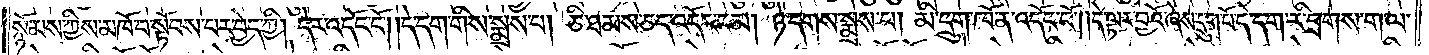སྙོམས་ཀྱིས་མཁོ་བ་སྟོབས་པར་བྱེད་ཀྱི། དེར་འདོང་ངོ༌། །དེ་དག་གིས་སྨྲས་པ། ཅི་ཐམས་ཅད་འདོང་ངམ། ཉེ་དགས་སྨྲས་པ། མི་དྲུག་ཁོ་ན་འདོང་ངོ༌། །དེ་ལྟར་བྱའོ་ཞེས་དྲུག་པོ་དེ་དག་རི་བྲགས་ག་ལ་
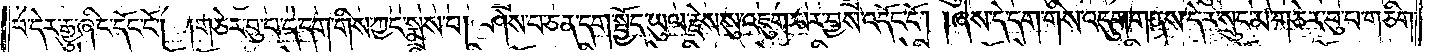བ་དེར་རྒྱུ་ཞིང་དོང་ངོ༌། །གཅེར་བུ་པ་དེ་དག་གིས་ཀྱང་སྨྲས་པ། ཤེས་པ་ཅན་དག་སྤྱོད་ཡུལ་རྗེས་སུ་འཇུག་པར་བྱས་འདོང་ངོ༌། །ཞེས་དེ་དག་གིས་འདུག་གནས་དེར་སྲུང་མ་གཅེར་བུ་པ་གཅིག་
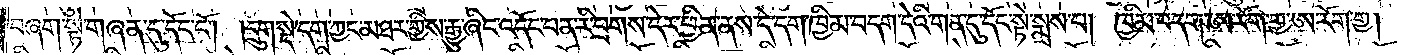བཞག་སྟེ་གཞན་དུ་དོང་ངོ༌། །དྲུག་སྡེ་དག་ཀྱང་མཐར་གྱིས་རྒྱུ་ཞིང་འདོང་པ་ན་རི་བྲགས་དེར་ཕྱིན་ནས་དེ་དག་ཁྱིམ་བདག་དེའི་གན་དུ་དོང་སྟེ་སྨྲས་པ། ཁྱིམ་བདག་ཨ་རོག་གྱ་ཨ་རོག་གྱ།
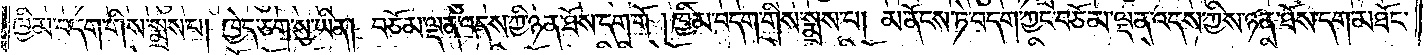ཁྱིམ་བདག་གིས་སྨྲས་པ། ཁྱེད་ཅག་སུ་ཡིན། བཅོམ་ལྡན་འདས་ཀྱི་ཉན་ཐོས་དག་གོ །ཁྱིམ་བདག་གིས་སྨྲས་པ། མ་ནོངས་ཏེ་བདག་ཀྱང་བཅོམ་ལྡན་འདས་ཀྱིས་ཉན་ཐོས་དག་མཐོང་
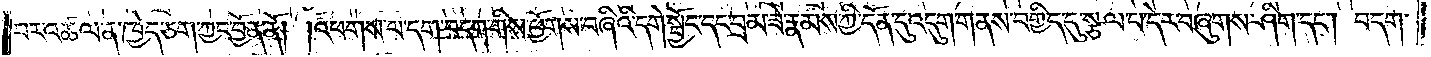བར་འཚལ་ན་ཁྱེད་ཅག་ཀྱང་བྱོན་ནོ། །འཕགས་པ་དག་བདག་གིས་ཕྱོགས་བཞིའི་དགེ་སྦྱོང་དང་བྲམ་ཟེ་རྣམས་ཀྱི་དོན་དུ་འདུག་གནས་བགྱིད་དུ་སྩལ་པ་དེར་བཞུགས་ཤིག་དང༌། བདག་
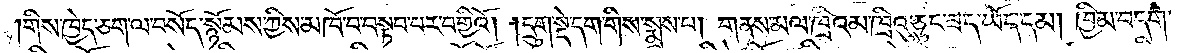གིས་ཁྱེད་ཅག་ལ་བསོད་སྙོམས་ཀྱིས་མཁོ་བ་བསྟབ་པར་བགྱིའོ། །དྲུག་སྡེ་དག་གིས་སྨྲས་པ། གནས་མལ་ཁྲིའམ་ཁྲིའུ་ཅུང་ཟད་ཡོད་དམ། ཁྱིམ་བདག་
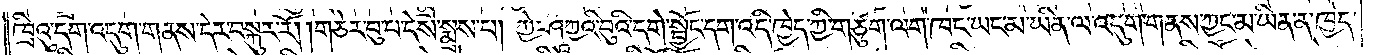ཁྲིའུ་དག་འདུག་གནས་དེར་བསྐུར་རོ། །གཅེར་བུ་པ་དེས་སྨྲས་པ། ཀྱེ་ཤཱཀྱའི་བུའི་དགེ་སྦྱོང་དག་འདི་ཁྱེད་ཀྱི་གཙུག་ལག་ཁང་ཡང་མ་ཡིན་ལ་འདུག་གནས་ཀྱང་མ་ཡིན་ན་ཁྱེད་
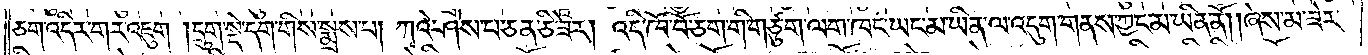ཅག་འདིར་གར་འཇུག །དྲུག་སྡེ་དག་གིས་སྨྲས་པ། ཀྭའེ་ཤེས་པ་ཅན་ཅི་ཟེར། འདི་ཁོ་བོ་ཅག་གི་གཙུག་ལག་ཁང་ཡང་མ་ཡིན་ལ་འདུག་གནས་ཀྱང་མ་ཡིན་ནོ། །ཞེས་མ་ཟེར་
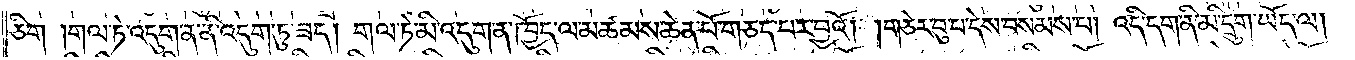ཅིག །གལ་ཏེ་འདུག་ན་ནི་འདུག་ཏུ་ཟད། གལ་ཏེ་མི་འདུག་ན་ཁྱོད་ལ་མཚམས་ཆེན་པོ་གཅད་པར་བྱའོ། །གཅེར་བུ་པ་དེས་བསམས་པ། འདི་དག་ནི་མི་དྲུག་ཡོད་ལ།
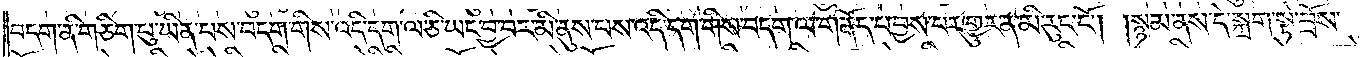བདག་ནི་གཅིག་པུ་ཡིན་པས་བདག་གིས་འདི་དག་ལ་ཅི་ཡང་བྱ་བར་མི་ནུས་པས་འདི་དག་གིས་བདག་ལ་གནོད་པ་བྱས་པར་གྱུར་ན་མི་རུང་ངོ༌། །སྙམ་ནས་དེ་སྐྲག་སྟེ་བྲོས་
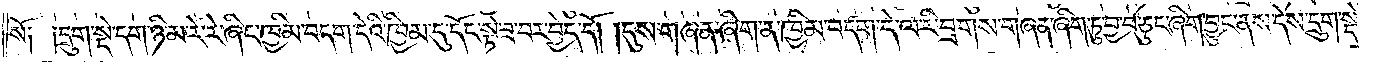སོ༑ ༑དྲུག་སྡེ་དག་ཉི་མ་རེ་རེ་ཞིང་ཁྱིམ་བདག་དེའི་ཁྱིམ་དུ་དོང་སྟེ་ཟ་བར་བྱེད་དོ། །དུས་གཞན་ཞིག་ན་ཁྱིམ་བདག་དེ་ལ་རི་བྲགས་གཞན་ཞིག་ཏུ་བྱ་བ་ཅུང་ཞིག་བྱུང་ནས་དེས་དྲུག་སྡེ་
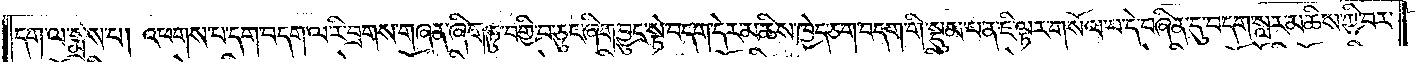དག་ལ་སྨྲས་པ། འཕགས་པ་དག་བདག་ལ་རི་བྲགས་གཞན་ཞིག་ཏུ་བགྱི་བ་ཅུང་ཞིག་བྱུང་སྟེ་བདག་དེར་མཆིས་ཁྱེད་ཅག་བདག་གི་སྡུམ་པ་ན་ཇི་ལྟར་གསོལ་བ་དེ་བཞིན་དུ་བདག་སླར་མཆིས་ཀྱི་བར་
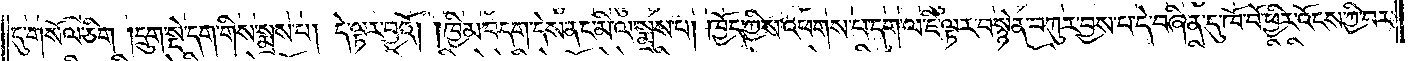དུ་གསོལ་ཅིག །དྲུག་སྡེ་དག་གིས་སྨྲས་པ། དེ་ལྟར་བྱའོ། །ཁྱིམ་བདག་དེས་ནང་མི་ལ་སྨྲས་པ། ཁྱོད་ཀྱིས་འཕགས་པ་དག་ལ་ཇི་ལྟར་བསྙེན་བཀུར་བྱས་པ་དེ་བཞིན་དུ་ཁོ་བོ་ཕྱིར་འོངས་ཀྱི་བར་
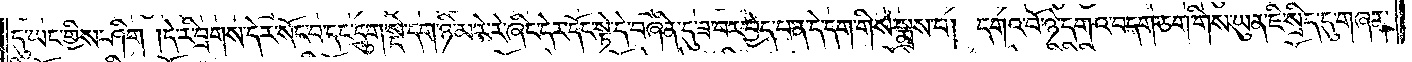དུ་ཡང་གྱིས་ཤིག །དེ་རི་བྲགས་དེར་སོང་བ་དང་དྲུག་སྡེ་དག་ཉི་མ་རེ་རེ་ཞིང་དེར་དོང་སྟེ་དེ་བཞིན་དུ་ཟ་བར་བྱེད་པ་ན་དེ་དག་གིས་སྨྲས་པ། དགའ་བོ་ཉེ་དགའ་བདག་ཅག་གིས་ཡུན་ཇི་སྲིད་དུ་གཞན་
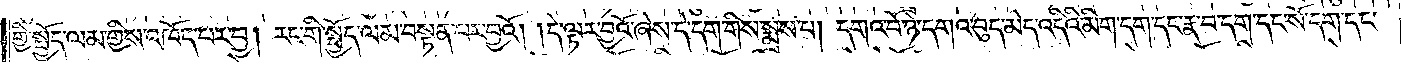གྱི་སྤྱོད་ལམ་གྱིས་འཁོད་པར་བྱ། རང་གི་སྤྱོད་ལམ་བསྟན་པར་བྱའོ། །དེ་ལྟར་བྱའོ་ཞེས་དེ་དག་གིས་སྨྲས་པ། དགའ་བོ་ཉེ་དགའ་བུད་མེད་འདིའི་མིག་དག་དང་རྣ་བ་དག་དང་སོ་དག་དང་
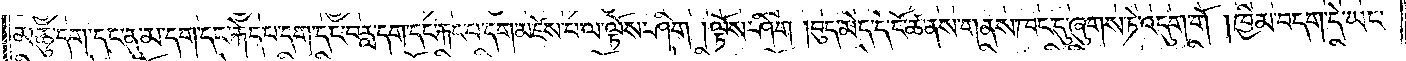མཆུ་དག་དང་ནུ་མ་དག་དང་རྐེད་པ་དག་དང་བརླ་དག་དང་རྐང་པ་དག་མཛེས་པ་ལ་ལྟོས་ཤིག །ལྟོས་ཤིག །བུད་མེད་དེ་ངོ་ཚ་ནས་གནས་ཁང་དུ་ཞུགས་ཏེ་འདུག་གོ །ཁྱིམ་བདག་དེ་ཡང་
